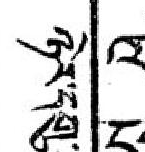ཉེར་དགུ་
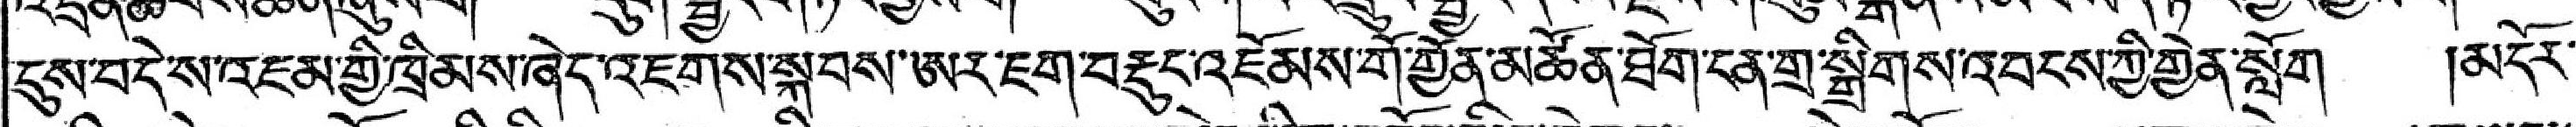དུས་བདེ་ས་འཇམ་གྱི་ཁྲིམས་ཞེད་འཇགས་སྐབས་ཨར་ཇག་བརྡུང་འཇོམས་གི་རྒྱོན་མཚོན་ཐོག་ངན་གྲ་སྒྲིགས་འབངས་ཀྱི་གྱེན་སློག །མདོར་་
